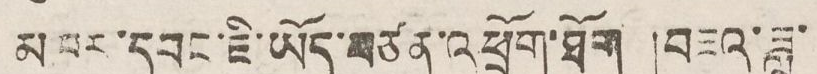མཁར་དབང་ཇི་ཡོད་བཙན་འཕྲོག་ཐོག །བཟའ་ཟླ་
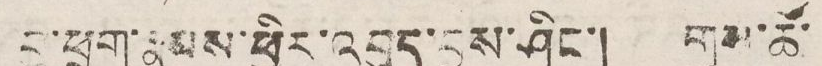བུ་ཕྲུག་རྣམས་ཕྱིར་འབུད་བྱས་ཤིང་། གུས་ཚོ་
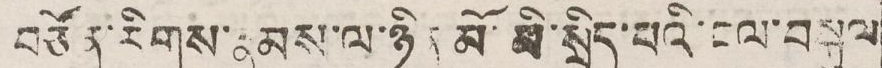བཙོན་རིགས་རྣམས་ལ་ཉིན་མོ་མི་སྲིད་པའི་ངལ་བསྐུལ
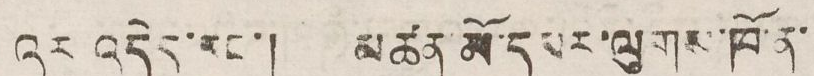འར འདེད་རང་། མཚན་མོ་དམར་ལུགས་ཁོ་ན་
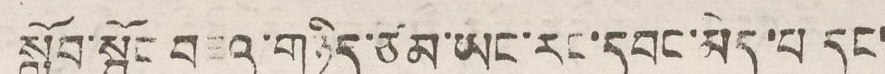སློབ་སྦྱོང་བཟའ་གཉིད་ཙམ་ཡང་རང་དབང་མེད་པ དང་
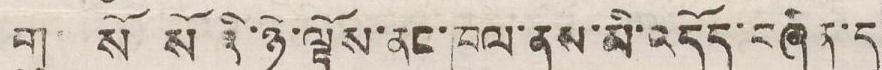གུ་ སོ སོའི་ཉི་ལྟོས་ནང་ཁུལ་ནས་མི་འདོད་བཞིན་དུ
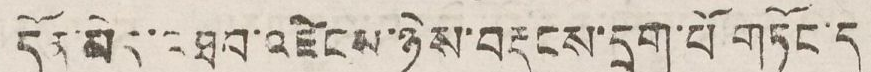དོན་མེད་འཐབ་འཛིངས་ཉེས་བརྡུངས་དྲག་པོ གཏོང་དུ་
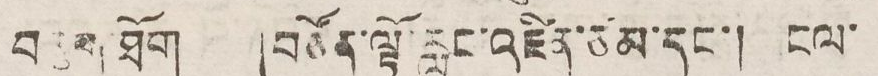བརྩག་ཐོག །བཙོན་ལྟོ་རླུང་འཛིན་ཙམ་དང་། ངལ་
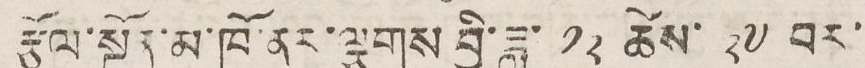རྩོལ་སྔོན་མ་ཁོ་ནར་ལྕགས བྱི་ཟླ་ ༡༢ ཚེས་ ༢༧ བར་
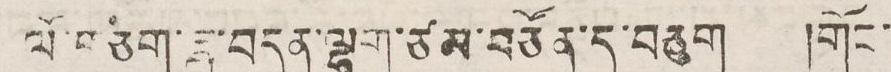ལོ་གཅིག་ཟླ་བདུན་ལྷག་ཙམ་བཙོན་དུ་བཅུག །གོང་
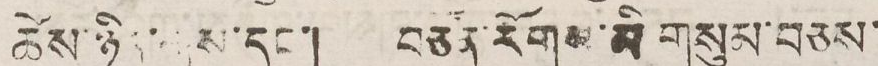ཚེས་ཉིན་གུས་དང་། བཙོན་རོགས་མི་གསུམ་བཅས་
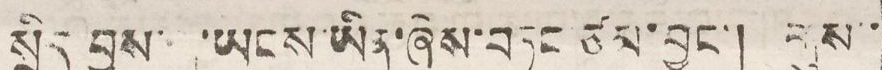སྲིད བྱུས་གུ་ཡངས་ཡིན་ཞེས་བཏང་ཙམ་བྱུང་། གུས་་
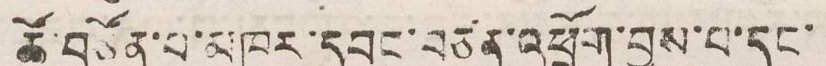ཚོ་བཙོན་པ་མཁར་དབང་བཙན་འཕྲོག་བྱས་པ་དང་
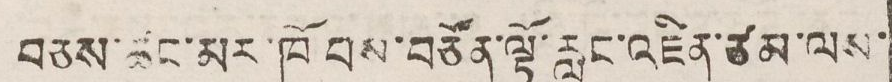བཅས་ཚང་མར་ཁོ བས་བཙོན་ལྟོ་རླུང་འཛིན་ཙམ་ལས་
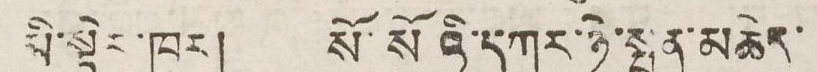མི་སྟེར་ཁར། སོ་སོའི་དཀར་ཉེ་སྤུན་མཆེད་
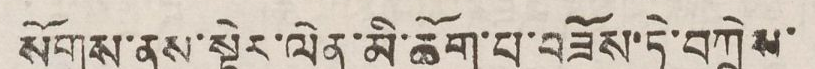སོགས་ནས་སྟེར་ལེན་མི་ཆོག་པ་བཟོས་དེ་བཀྲེས་
